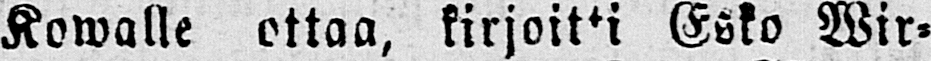Kowalle ottaa, kirjoitti Esko Wir-
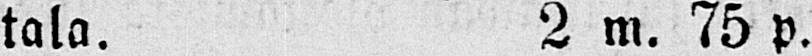tala. 2 m. 75 p.
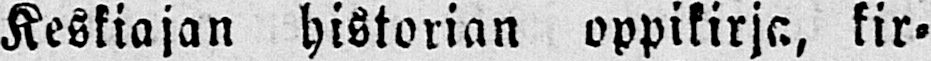Keskiajan historian oppikirja, kir-
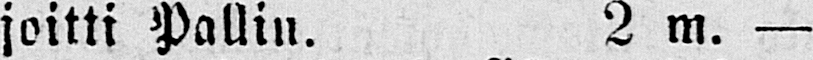joitti Pallin. 2 m. —
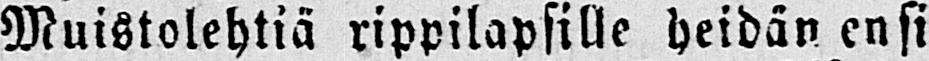Muistolehtiä rippilapsille heidän ensi
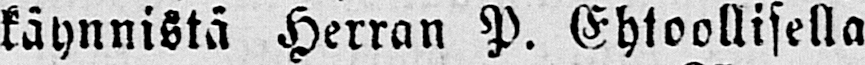käynnistä Herran P. Ehtoollisella
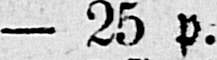— 25 p.
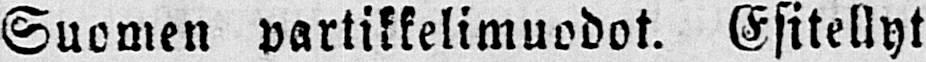Suomen partikkelimuodot. Esitellyt
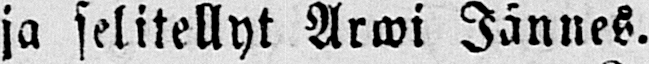ja selitellyt Arwi Jännes.
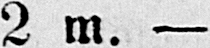2 m. —
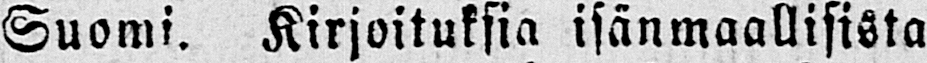Suomi. Kirjoituksia isänmaallisista
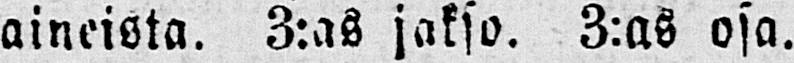aineista. 3:as jakso. 3:as osa.
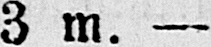3 m. —
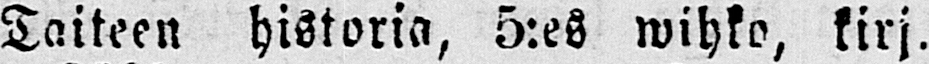Taiteen historia, 5:es wihko, kirj.
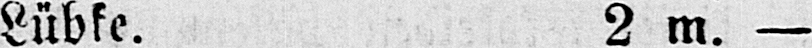Lubke. 2 m. —
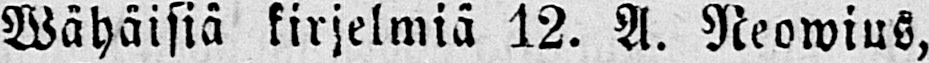Wähäisiä kirjelmiä 12. A. Neowius,
